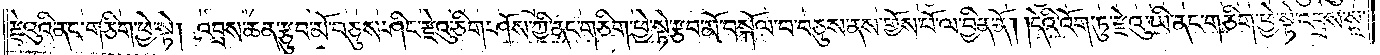རྫེའུའི་ནང་གཅིག་ཕྱེ་སྟེ། འབྲས་ཆན་རྩུབ་མོ་བཅུས་ཤིང་རྫེའུ་ཅིག་ཤོས་ཀྱི་ནང་གཅིག་ཕྱེ་སྟེ་རྩབ་མོ་བསྐོལ་བ་བཅུས་ནས་གྱོས་པོ་ལ་བྱིན་ནོ། །དེའི་འོག་ཏུ་རྫེའུ་ཡི་ནང་གཅིག་བྱེ་སྟེ་འབྲས་སཱ་
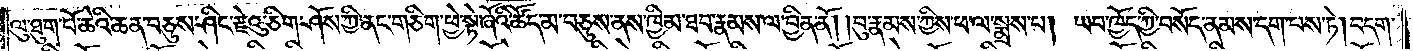ལུ་ཐུག་པོ་ཆེའི་ཆན་བཅུས་ཤིང་རྫེའུ་ཅིག་ཤོས་ཀྱི་ནང་གཅིག་ཕྱེ་སྟེ་ཞོའི་ཚོད་མ་བཅུས་ནས་ཁྱིམ་ཐབ་རྣམས་ལ་བྱིན་ནོ། །བུ་རྣམས་ཀྱིས་ཕ་ལ་སྨྲས་པ། ཡབ་ཁྱོད་ཀྱི་བསོད་ནམས་དག་པས་ཏེ། བདག་
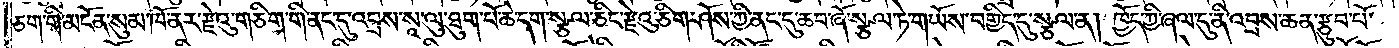ཅག་གི་མངོན་སུམ་ཁོ་ནར་རྫེའུ་གཅིག་གི་ནང་དུ་འབྲས་སཱ་ལུ་ཐུག་པོ་ཆེ་དག་སྩལ་ཅིང་རྫེའུ་ཅིག་ཤོས་ཀྱི་ནང་དུ་ཆབ་ཞོ་སྩལ་ཏེ་གཡོས་བགྱིད་དུ་སྩལ་ན། ཁྱོད་ཀྱི་ཞལ་དུ་ནི་འབྲས་ཆན་རྩུབ་པོ་
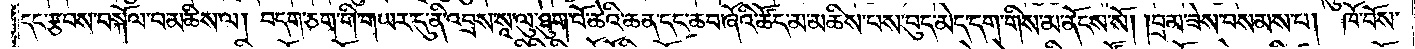དང་རྩབས་བསྐོལ་བ་མཆིས་ལ། བདག་ཅག་གི་གཡར་དུ་ནི་འབྲས་སཱ་ལུ་ཐུག་པོ་ཆེའི་ཆན་དང་ཆབ་ཞོའི་ཚོད་མ་མཆིས་པས་བུད་མེད་དག་གིས་མ་ནོངས་སོ། །བྲམ་ཟེས་བསམས་པ། ཁོ་བོས་
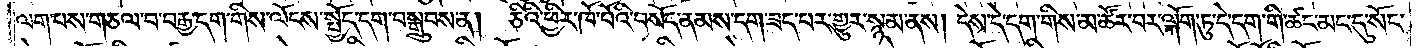ལག་པས་གཅལ་བ་བརྒྱ་དག་གིས་ལོངས་སྤྱོད་དག་བསྒྲུབས་ན། ཅིའི་ཕྱིར་ཁོ་བོའི་བསོད་ནམས་དག་ཟད་པར་གྱུར་སྙམ་ནས། དེས་དེ་དག་གིས་མ་ཚོར་བར་ལྐོག་ཏུ་དེ་དག་གི་ཚང་མང་དུ་སོང་
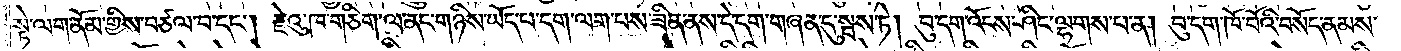སྟེ་ལག་ནོམ་གྱིས་བཙལ་བ་དང༌། རྫེའུ་ཁ་གཅིག་ལ་ནང་གཉིས་ཡོད་པ་དག་ལག་པས་ཟིན་ནས་དེ་དག་གཞན་དུ་སྦས་ཏེ། བུ་དག་འོངས་ཤིང་ལྷགས་པ་ན། བུ་དག་ཁོ་བོའི་བསོད་ནམས་
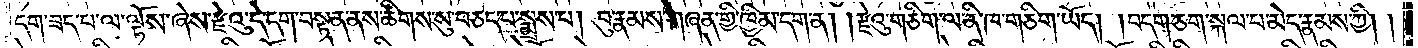དག་ཟད་པ་ལ་ལྟོས་ཞེས་རྫེའུ་དེ་དག་བསྟན་ནས་ཚིགས་སུ་བཅད་པ་སྨྲས་པ། བུ་རྣམས་གཞན་གྱི་ཁྱིམ་དག་ན། །རྫེའུ་གཅིག་ལ་ནི་ཁ་གཅིག་ཡོད། བདག་ཅག་སྐལ་པ་མེད་རྣམས་ཀྱི། །
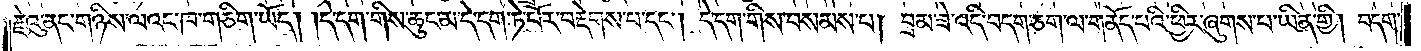རྫེའུ་ནང་གཉིས་ལའང་ཁ་གཅིག་ཡོད། །དེ་དག་གིས་ཆུང་མ་དེ་དག་ཏེ་པོར་བརྡེགས་པ་དང༌། དེ་དག་གིས་བསམས་པ། བྲམ་ཟེ་འདི་བདག་ཅག་ལ་གནོད་པའི་ཕྱིར་ཞུགས་པ་ཡིན་གྱི། བདག་
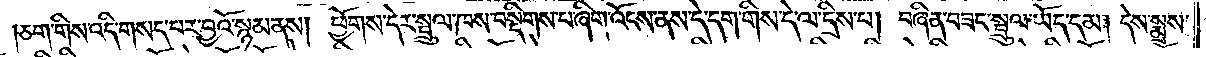ཅག་གིས་འདི་གསད་པར་བྱའོ་སྙམ་ནས། ཕྱོགས་དེར་སྦྲུལ་ཁས་བསྡིགས་པ་ཞིག་འོངས་ནས་དེ་དག་གིས་དེ་ལ་དྲིས་པ། བཞིན་བཟང་སྦྲུལ་ཡོད་དམ། དེས་སྨྲས་
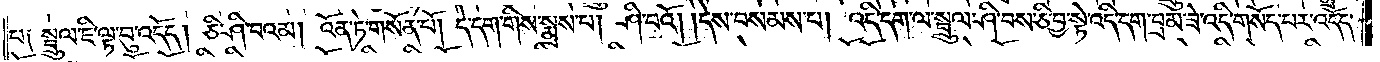པ༑ སྦྲུལ་ཇི་ལྟ་བུ་འདོད། ཅི་ཤི་བའམ། འོན་ཏེ་གསོན་པོ། དེ་དག་གིས་སྨྲས་པ། ཤི་པའོ། །དེས་བསམས་པ། འདི་དག་ལ་སྦྲུལ་ཤི་བས་ཅི་བྱ་སྟེ་འདི་དག་བྲམ་ཟེ་འདི་གསོད་པར་འདོད་
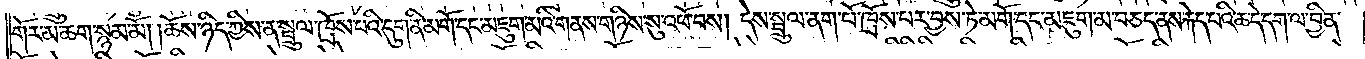གོར་མ་ཆག་སྙམ་མོ། །ཆོས་ཉིད་ཀྱིས་ན་སྦྲུལ་ཁྲོས་པའི་དུག་ནི་མགོ་དང་མཇུག་མའི་གནས་གཉིས་སུ་འཕོ་བས། དེས་སྦྲུལ་ནག་པོ་ཁྲོས་པར་བྱས་ཏེ་མགོ་དང་མཇུག་མ་བཅད་ནས་རྐེད་པའི་ཆ་དེ་དག་ལ་བྱིན་
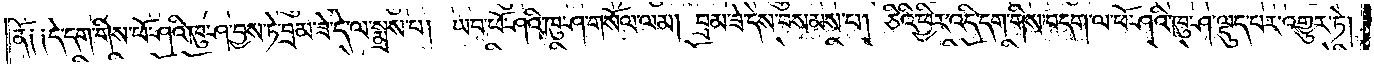ནོ༑ ༑དེ་དག་གིས་ཕོ་ཤའི་ཁུ་ཤ་བྱས་ཏེ་བྲམ་ཟེ་དེ་ལ་སྨྲས་པ། ཡབ་ཕོ་ཤའི་ཁུ་ཤ་གསོལ་ལམ། བྲམ་ཟེ་དེས་བསམས་པ། ཅིའི་ཕྱིར་འདི་དག་གིས་བདག་ལ་ཕོ་ཤའི་ཁུ་ཤ་ལྡུད་པར་འགྱུར་ཏེ།
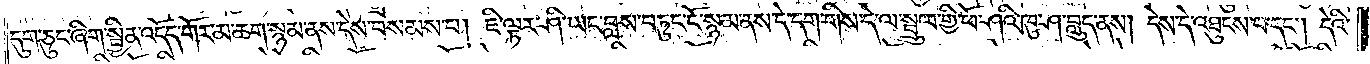དུག་ཅུང་ཞིག་སྦྱིན་འདོད་གོར་མ་ཆག་སྙམ་ནས་དེས་བསམས་པ། ཇི་ལྟར་ཤི་ཡང་བླས་བཏུང་ངོ་སྙམ་ནས་དེ་དག་གིས་དེ་ལ་སྦྲུལ་གྱི་ཕོ་ཤའི་ཁུ་ཤ་བླུད་ནས། དེས་དེ་འཐུངས་པ་དང༌། དེའི་
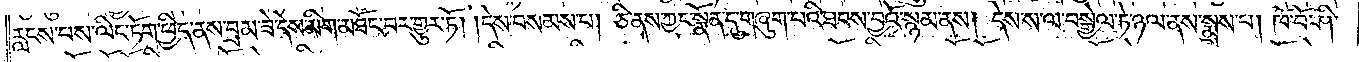རླངས་པས་ལིང་ཏོག་ཕྱིད་ནས་བྲམ་ཟེ་དེས་མིག་མཐོང་བར་གྱུར་ཏོ། །དེས་བསམས་པ། ཅི་ནས་ཀྱང་སྣོན་དུ་གཞུག་པའི་ཐབས་བྱའོ་སྙམ་ནས། དེས་ས་ལ་བསྒྱེལ་ཏེ་ཉལ་ནས་སྨྲས་པ། ཁོ་བོ་ཤི་
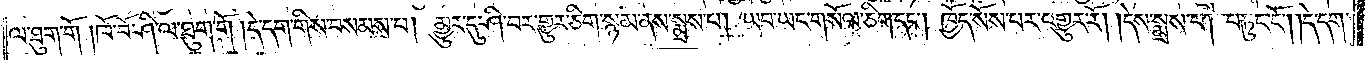ལ་ཐུག་གོ །ཁོ་བོ་ཤི་ལ་ཐུག་གོ །དེ་དག་གིས་བསམས་པ། མྱུར་དུ་ཤི་བར་གྱུར་ཅིག་སྙམ་ནས་སྨྲས་པ། ཡབ་ཡང་གསོལ་ཅིག་དང༌། ཁྱོད་སོས་པར་འགྱུར་རོ། །དེས་སྨྲས་པ། བཏུང་ངོ༌། །དེ་དག་
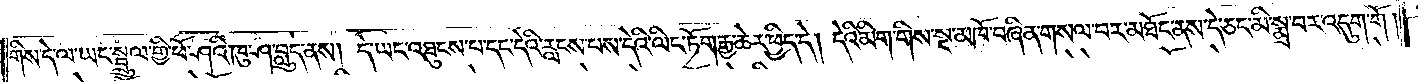གིས་དེ་ལ་ཡང་སྦྲུལ་གྱི་ཕོ་ཤའི་ཁུ་ཤ་བླུད་ནས། དེ་ཡང་འཐུངས་པ་དང་དེའི་རླངས་པས་དེའི་ལིང་ཏོག་རྒྱ་ཆེར་ཕྱིད་དེ། དེའི་མིག་གིས་སྔ་མཁོ་བཞིན་གསལ་བར་མཐོང་ནས་དེ་ཅང་མི་སྨྲ་བར་འདུག་གོ །
